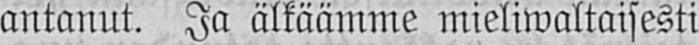antanut. Ja älkäämme mieliwaltaisesti
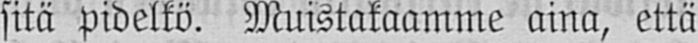sitä pidelkö. Muistakaamme aina, että
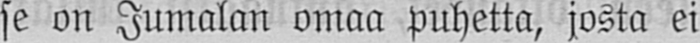se on Jumalan omaa puhetta, josta ei
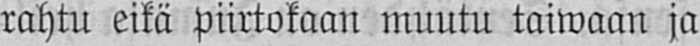rahtu eikä piirtokaan muutu taiwaan ja
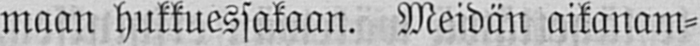maan hukkuessakaan. Meidän aikanam-
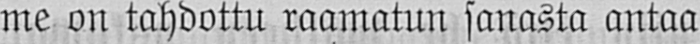me on tahdottu raamatun sanasta antaa
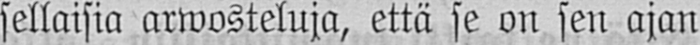sellaisia arwosteluja, että se on sen ajan
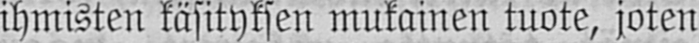ihmisten käsityksen mukainen tuote, joten
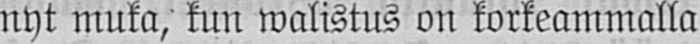nyt muka, kuu walistus on korkeammalla
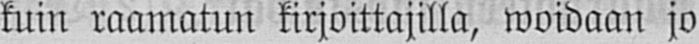kuin raamatun kirjoittajilla, woidaan jo
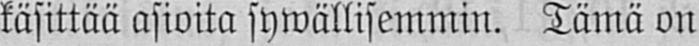käsittää asioita sywällisemmin. Tämä on-
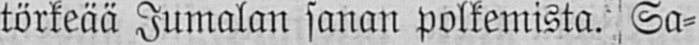törkeää Jumalan sanan polkemista. Sa-
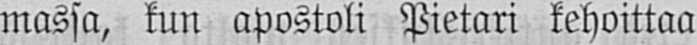massa, kun apostoli Pietari kehoittaa
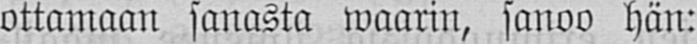ottamaan sanasta waarin, sanoo hän:
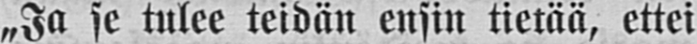„Ja se tulee teidän ensin tietää, ettei
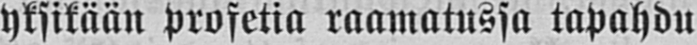yksikään profetia raamatussa tapahdu
